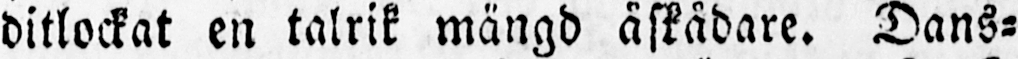ditlockat en talrik mängd åskådare. Dans-
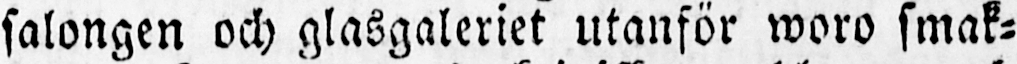salongen och glasgaleriet utanför woro smak-
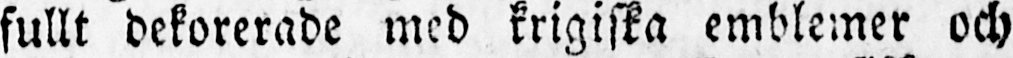fullt dekorerade med krigiska emblemer och
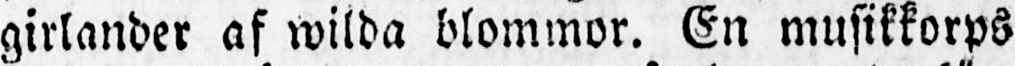girlander af wilda blommor. En musikkorps
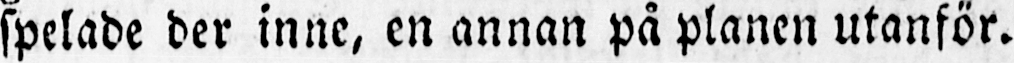spelade der inne, en annan på planen utanför.
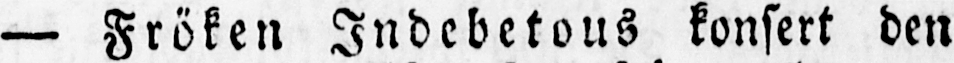— Fröken Indebetous konsert den
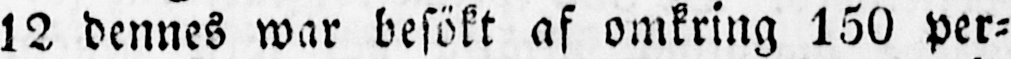12 dennes war besökt af omkring 150 per-
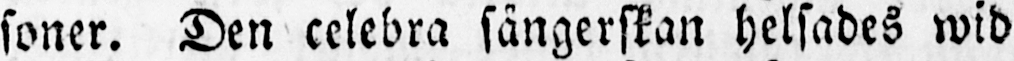soner. Den celebra sångerskan helsades wid
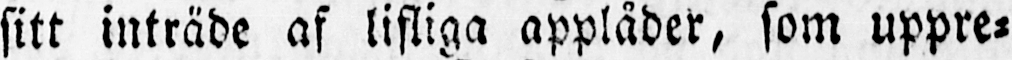sitt inträde af lifliga applåder, som uppre-
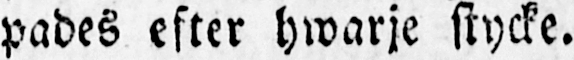pades efter hwarje stycke.
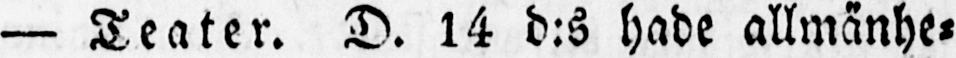— Teater. D. 14 d:s hade allmänhe-
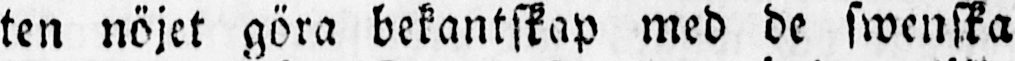ten nöjet göra bekantskap med de swenska
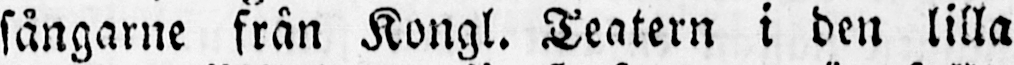sångarne från Kongl. Teatern i den lilla
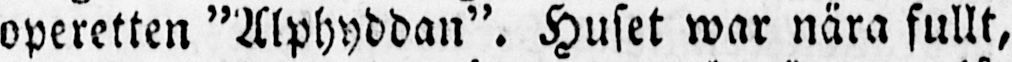operetten "Alphyddan". Huset war nära fullt,
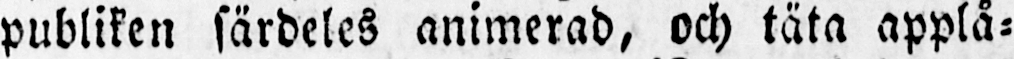publiken särdeles animerad, och täta applå-
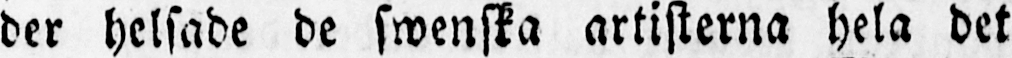der helsade de swenska artisterna hela det
